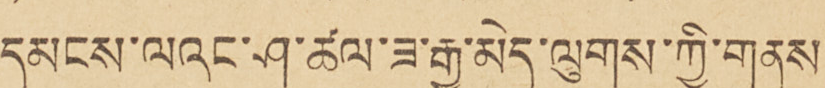དམངས་ལའང་ཤ་ཚལ་ཟ་རྒྱུ་མེད་ལུགས་ཀྱི་གནས་
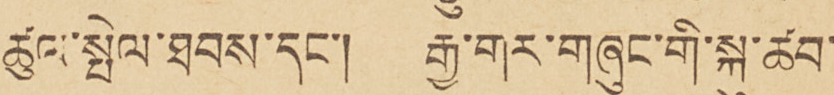ཚུལ་སྤེལ་ཐབས་དང་། རྒྱ་གར་གཞུང་གི་སྐུ་ཚབ་
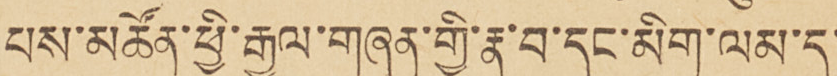པས་མཚོན་ཕྱི་རྒྱལ་གཞན་གྱི་རྣ་བ་དང་མིག་ལམ་དུ་
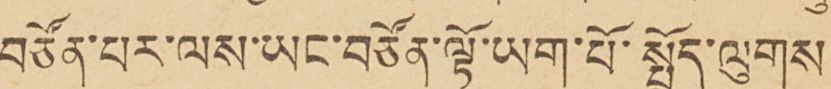བརྩོན་པར་ལས་ཡར་བརྩོན་ལྟོ་ཡག་པོ་སྤྲོད་ལུགས་
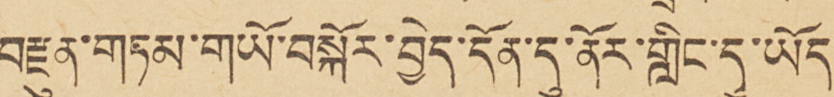བརྫུན་གཏམ་གཡོ་བསྐོར་བྱེད་དོན་དུ་ནོར་གླིང་དུ་ཡོད
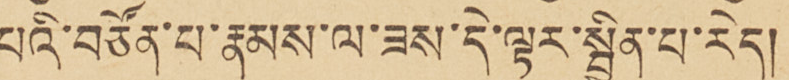པའི་བཙོན་པ་རྣམས་ལ་ཟས་དེ་ལྟར་སྦྱིན་པ་རེད།
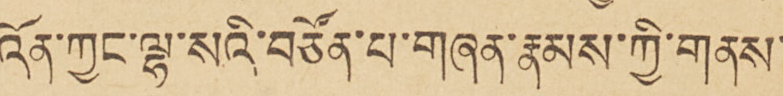འོན་ཀྱང་ལྷ་སའི་བཙོན་པ་གཞན་རྣམས་ཀྱི་གནས་
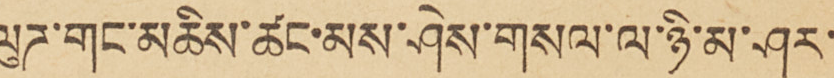ལུཊ་གང་མཆིས་ཚང་མས་ཤེས་གསལ་ལ་ཉི་མ་ཤར་
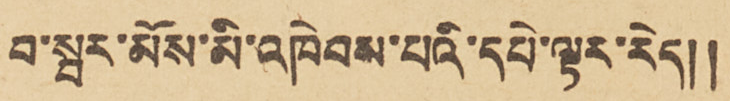བ་སྦར་མོས་མི་འཁེབས་པའི་དཔེ་ལྟར་རེད།།
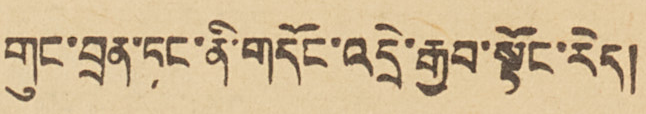གུང་བྲན་ཏང་ནི་དགོང་འདྲེ་རྒྱབ་སྟོང་རེད།
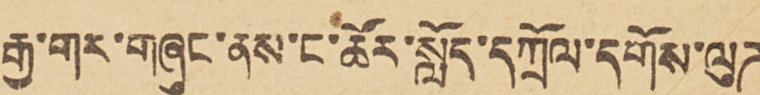རྒྱ་གར་གཞུང་ནས་ང་ཚོའི་སློད་དཀྲོལ་དགོས་ལུཊ་
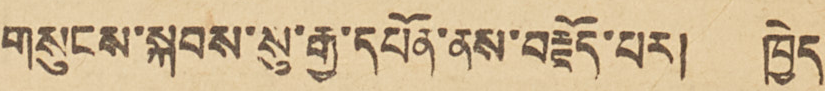གསུངས་སྐབས་སུ་རྒྱ་དཔོན་ནས་བརྗོད་པར། ཁྱེད་
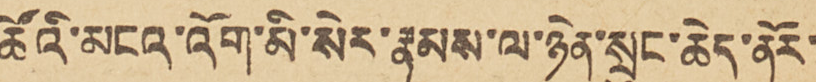ཚོའི་མངའ་འོག་མི་སེར་རྣམས་ལ་ཉེན་སྲུང་ཆེད་ནོར་
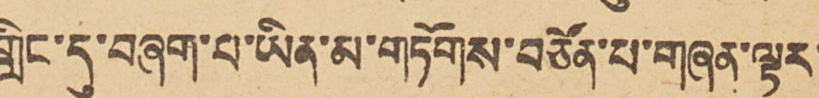གླིང་དུ་བཞག་པ་ཡིན་མ་གཏོགས་བཙོན་པ་གཞན་ལྟར་
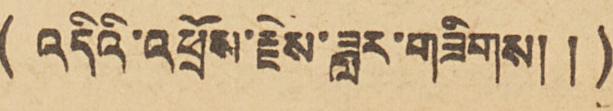(འདིའི་འཕྲོས་རྗེས་ཟླར་གཟིགས།།)
